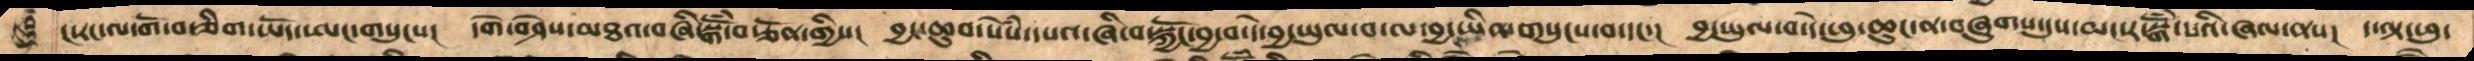ང་རང་ལ་གོ་བ་ཅིག་ཡོད་ཨང་གསུངས། དགེ་བཤེས་མཐའ་བཞི་སྒོཾ་བརྩོན་གྱིས།  བྱང་ཆུབ་སེཾས་དཔའ་ཞི་བ་སྐྱོང་བྱ་བ་དེ་བྱ་ཡུལ་བ་ལ་བྱ་ཡིན་གསུངས་བ་དང་། བྱ་ཡུལ་བ་དེ་ཕུ་ཆུང་ན་བཞུགས་དུས་མང་ར་སྒོཾ་པའི་ཞལ་ནས། ད་ལྟ་ཕུ་
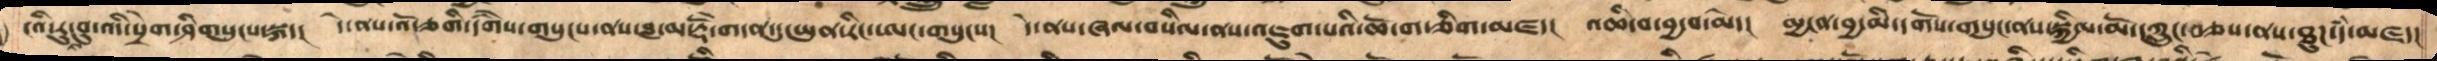ངའི་རུང་བུ་འདི་སྲེག་ཤིགསུངས་སྐད། དེ་ནས་འོ་ཅགི་དགཻས་གསུངས་ནས་བླ་མ་རྡོེ་གདན་དུ་ཡུན་རིང་ཨང་གསུངས་། དེ་ནས་ཞལ་བསིལ་ནས་འཇུག་པའི་ཆོ་ག་ཅིག་མཛད། འཆི་བ་བྱ་བ་མེད་། མྱངན་བྱ་མི་དགོས་གསུང་ནས་སྐྱིལ་མོ་ཀྲུང་བཅས་ནས་ཐུཌ་དཾ་མཛད།
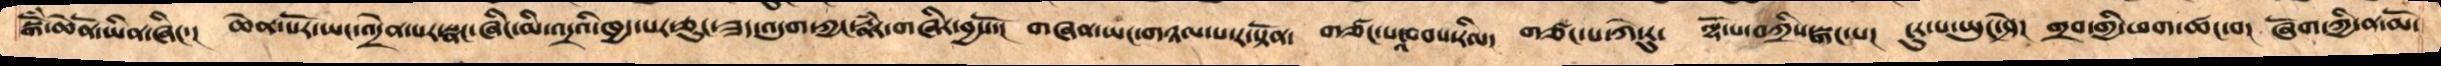སྒོཾ་ཆེནོ་ཡིན་ཞིང་།   ཆེན་པོར་ཡང་འདྲེན་པར་སྣང་ཞིང་མི་འདྲའི་ཁྱད་པར་ཅུང་ཟད་འདུག་ཀྱང་རྣཾར་གཞིར་བྱསོ་།  གཞན་ཡང་གཉལ་པ་ར་སྟོན།  གཙང་པའ་བབས་རིལ།  གཙང་པ་ཀེ་རུ་  ལྷོ་པ་བཀྲིས་སྒང་པ།  ངུར་པ་ཡུང་ཤེ།  གྲབ་གྱི་ཕག་ཚང་བ།  ཞོག་ཀྱི་ན་མོ་
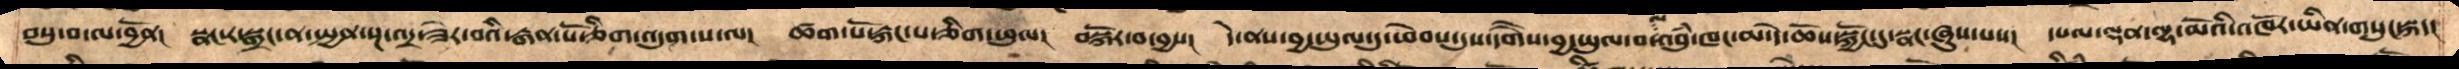བསུ་བ་ལ་བྱོན། སྣང་ར་སྒྲང་ན་སྤྱན་སྔ་འདྲ་ཟེར་བའི་རྒན་པོ་ཅིག་འདུག་པ་ལ།  ཚག་པོ་རྐང་པ་ཅིག་ཕུལ།  བསྐོར་བ་བྱས། དེ་ནས་བྱ་ཡུལ་དུ་ཕེབས་དུས་དགཻས་བྱ་ཡུལ་བ་ལ་འབུཾ་ཁང་མ་དེ་ཆོས་སྐྱོང་དུ་སྣང་ཞུས་པས། དཔལ་ལྡན་ལྷ་མོའི་འཁོར་ཡིན་གསུང་སྐད།
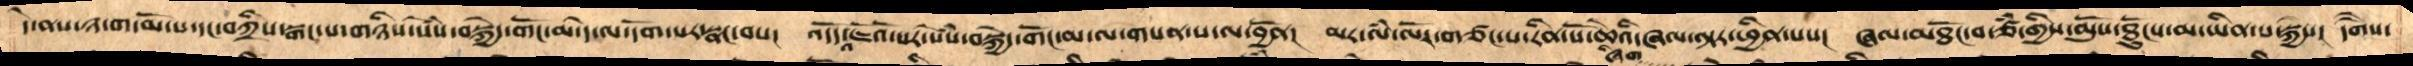དེ་ནས་ཉ་ག་མོ་པ་དང་བཀྲིས་སྒང་པ་གཉིས་སེཾས་བསྐྱེད་གོང་མ་དེ་ལ་དོག་པར་སྣང་བས།   འདོད་འཇོའོ་སར་སེཾས་བསྐྱེད་གོང་མ་ལ་གསན་པ་ལ་བྱོན། མར་ལཾ་ལོར་གཙང་པ་རིན་པོ་ཆེའི་ཞལ་ལྟར་ཕྱིན་པས། ཞལ་མཐོང་བ་ཙཾ་གྱིས་མོུས་ཐོུངས་མ་ཡིན་པ་སྐྱེས། དགཻས་
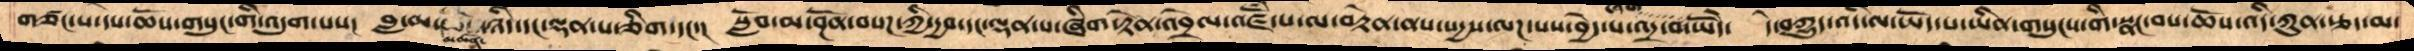གཙང་པ་དེཔ་ཆོས་གསུང་གི་འདུག་པས། བླ་མས་མཚན་ཉིད་དང་ལྡན་པ་ཅིག་དང་། སློབ་མ་སྔོན་བསཌ་ཀྱི་དྱབ་དང་ལྡན་པ་ཞིག་རྟེན་འབྲེལ་འཛོཾ་པ་ལ་བརྟེན་ནས་སདྱས་ལཌ་པས་བྱེད་པ་འདྲ་བ་ཞིག་ཡོདེ།  དེ་བཀྱུད་འདི་ལ་ཡོད་པ་ཡིན་གསུངས་གི་སྣང་བས་ཆོས་འདི་ཀུན་རྩད་མ་
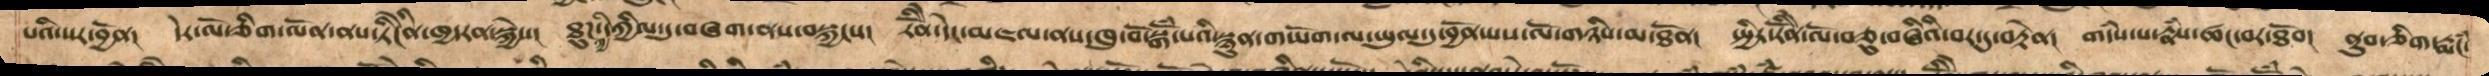པའི་སར་བྱོན།  དེར་ལོ་ཅིག་ལོན་ནས་ཏིེངནི་ཁྱདརན་སྐྱེས། ཐུཌ་ཀྱི་དཀྱིལ་དུ་བཞག་ནས་བསྐྱངས། རོིནེ་དེང་མཇལ་ནས་ཁུ་བོ་སྒོཾ་པའི་སྙུན་གཡོག་ལ་ཡུལ་དུ་བྱོན་པས་ལོ་གཉིས་མ་ཐོན། སྤྱིར་རོིནེ་ལོ་བཅུ་བཞིའི་བར་དུ་བརྟེན། གདཾས་པ་རྣཾས་ཚང་བར་ཐོབ། ནུབ་ཅིག་རྨཾ།
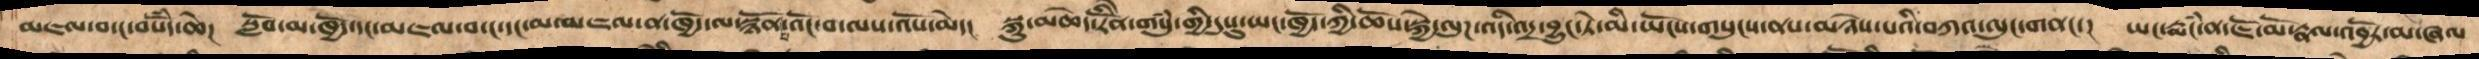མཇལ་བ་ང་བསོཾད་ཆེ།  སློབ་མ་ཁྱོད་དང་མཇལ་བ་ང་དང་མ་མཇལ་ན་ཁྱོད་ལ་སྙོན་པ་འོང་བ་ལས་འོས་མེད། སྐུ་མཆེད་རོིནེ་གསུཾ་གྱི་དུསུ་ཡང་ཁྱོད་ཀྱི་ཆོས་སྐྱེ་ལུཌ་འདི་འདྲ་བྱུང་ཏེ་མི་ཡོངས་གསུངས་ནས་མཉེས་པའི་བཀའ་ལུང་གནང་། ཡང་རྨཾང་ན་ཇོ་མོ་རྣལ་འབྱོར་མ་ཞལ་
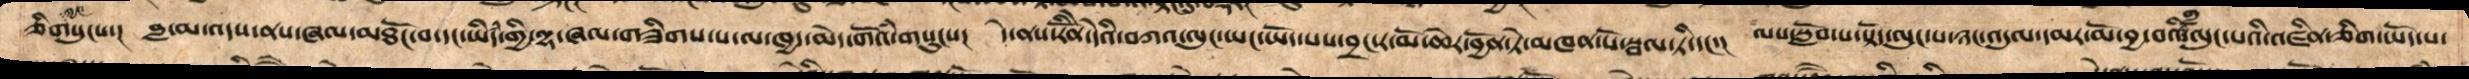ཅིག་ཀྱང་གསུངས། བླ་མ་འདས་ནས་ཞལ་མཐོང་བ་དང་ཡིདཾ་གྱི་ལྷ་ཞལ་གཟིགས་པ་ལ་ཁྱད་མེད་གོའཾ་གསུངས། དེ་ནས་རོིནོ་དེའི་བཀའ་ལུང་ཡང་ཡོད་པས་བྲང་ར་མོ་ཆེར་བྱོན་ཏེ་མཁན་པོ་སྦལ་ཏི་དང་། ལས་སློབ་པ་སྟོད་ལུང་པ་ཉང་འདུལ་དམར་མོ་བྱ་བའི་ལུང་པའི་འཛིན་ཅིག་ཡོད་པ་
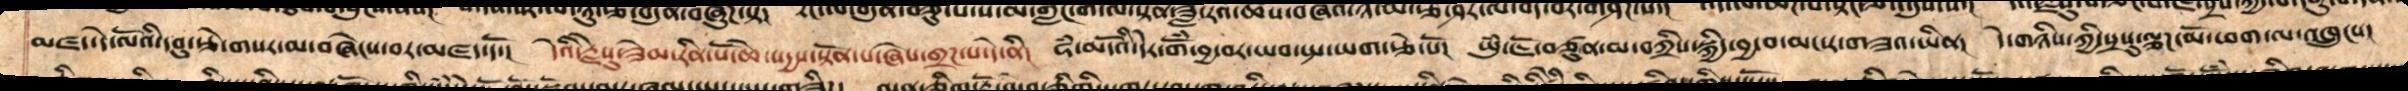མཛད་དེ་ལོའི་དབུ་རྩེ་གསར་མ་བཞེངས་བར་མཛད་དོ་།  དེའི་རྗེསུ་ཟེམ་རིན་པོ་ཆེ་སདྱས་སྟོན་པ་ཞེས་གྲཌ་པ་དེ་ནི། ཧཾ་མདོའི་དེར་གོཾ་བྱ་བར་ཡབ་སྤ་ཡག་རྩེ་པོ་། ཡུཾ་ཇོ་བཙུན་མ་བཀྲིས་སྐྱིད་བྱ་བ་མང་ར་གཟའ་ཡིན།  དེ་གཉིས་ཀྱི་སྲསུ་ལྕཌ་མོ་ཕག་ལ་འཁྲུངས།
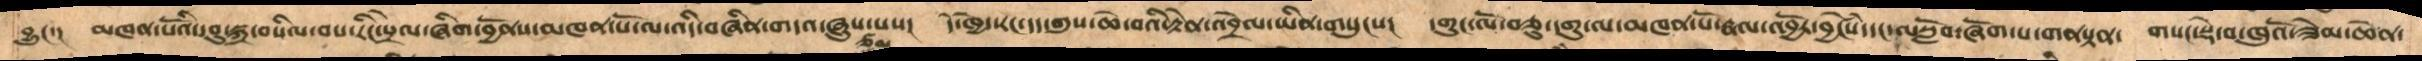བྱུང་། མཁན་པོའི་དབུ་སྐྲ་བསིལ་བས་རིང་སྲེལ་ཞིག་བྱོནས་མཁན་པོ་ལ་འདི་བཞིན་གདའ་ཞུས་པས། དེ་ཁྱེད་རང་དད་གུས་ཆེ་བའི་རྟེན་འབྲེལ་ཡིན་གསུངས། དགུང་ལོ་བཅུ་དགུ་ལ་མཁན་པོ་རྣལ་འབྱོར་བྱངེཾས་དང་ལསློབ་ཞོག་པ་གནསྟན། གསང་སྡེ་བ་ཁུའོ་ཟེམ་ཆེན
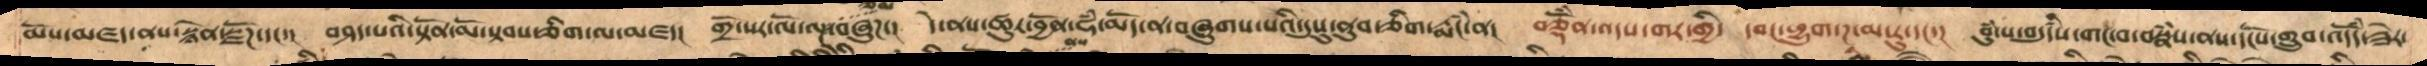མོས་མཛད་ནས་བསྙེན་སྫོཌ་དང་།  བཤད་པའི་སྟོན་མོ་སྟབས་ཅིག་ལ་མཛད། གྲོ་སར་ལོ་ལྔ་ཙམ་བཞུཌ་། དེ་ནས་ཚུར་བྱོན་ཧཾ་མདོ་ན་བཞུགས་པའི་དུསུ་ནུབ་ཅིག་རྨཾང་ན།  བཅྡོཾན་འདས་གར་གྱི་ དབང་ཕྱུག་ཌཱ་མ་རུ་དང་།  བུཾ་པ་བདུདརྩིས་གང་བ་བསྣཾས་ནས་དངོས་གྲུབ་འདོདཾ་ཟེར་
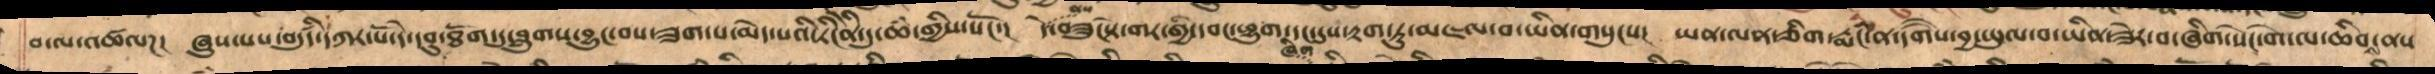བ་ལ་འཚལཌ།  ཞུས་པས་བདུརྩི་དཀར་པོ་དེ་དབུ་ཐོག་དུ་བླུགས་བྱུང་བས་ཟག་པ་མེད་པའི་་ཏིངེཛིན་དུ་ཆཾ་གྱིས་སོང་། དེ་ནས་བཟུངས་གར་གྱི་དབང་ཕྱུག་དང་དུས་རྟག་ཏུ་མཇལ་བ་ཡིན་གསུངས། ཡན་ལན་ཅིག་རྨཾང་ནདགཻས་་བྱ་ཡུལ་བ་ཡིན་ཟེར་བ་ཞིག་སེང་གེ་ལ་ཆིབས་ནས་
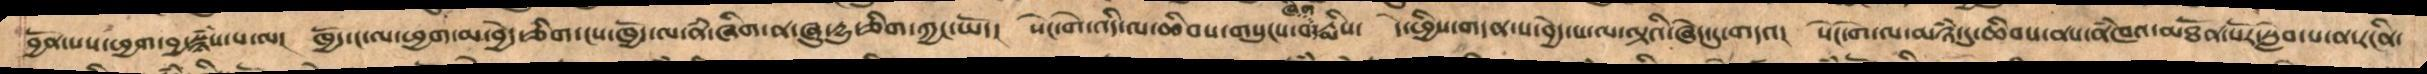བྱོན་པས་ཕྱག་བྱ་སྙཾས་པ་ལ། ཁྱོད་ང་ལ་ཕྱག་མ་བྱེད་ཅིག་ངས་ཁྱོད་ལ་ནཾ་ཞིག་ན་ཞུ་དྱུ་ཅིག་ཀྱང་ཡོད། སེང་གེ་འདི་ལ་ཆིབས་གསུང་བ་ཞིག་རྨིས། དེ་ཕྱིས་གདན་ས་བྱེད་པ་ལ་ལྟའི་ཞེད་དུ་གདའ། སེང་གེ་ལ་མཉཾ་དུ་ཆིབས་ནས་ནཾཁའ་མཐོན་པོར་སླེབ་པ་ན་རངིན་
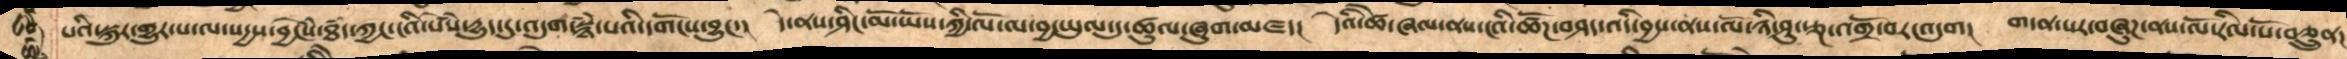པའི་སྐུར་གྱུར་པ་ལ་སདྱས་བྱེངཾས་ཐཾད་ཀྱང་ངའི་སེཾས་དྱུད་དུ་འདུག་སྙཾ་པའི་དགོངས་བྱུང་། དེ་ནས་ཤིང་མོ་ཡོས་ཀྱི་ལོ་ལ་བྱ་ཡུལ་དུ་ཚུལ་ཞུག་མཛད། དེའི་ཚེ་ཞལ་ནས་ངའི་ཚོཌ་བཤད་འདི་བྱས་ནས་ལོ་ཉི་ཤུ་རྩྔ་འགྲོ་བར་འདུག།  གདན་སར་བཞུཌ་ནས་ལོ་རིལ་་པོ་བཅྲུན།
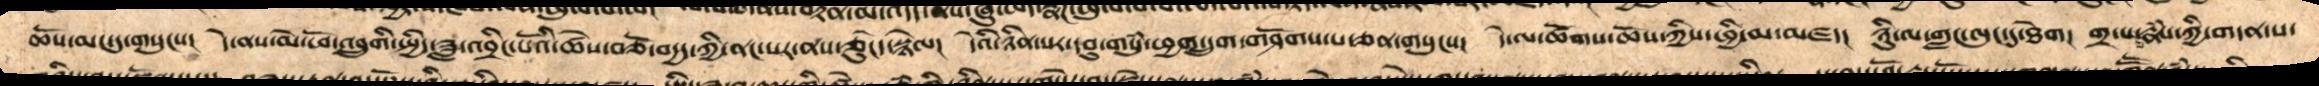ཆོས་མང་དུ་གསུངས་། དེ་ནས་མེ་ཕོ་འབྲུགི་སྤྱིད་ཟླ་འབྲིང་པོའི་ཚེས་བཅོ་བདྱད་ཀྱི་ནང་པར་ནས་ཅུངེད་སྙེལ། དེའི་ཉིན་པར་དབུ་གསུཾ་ཕྱག་དྲུག་གཤོགས་པ་ཅན་གསུངས་ དེ་ལ་ཚོགས་ཆོས་ཀྱིས་ཕྱི་མ་མཛད།  ཉིུ་ལ་གླང་ལུང་ལ་ཐེག། གྲ་པ་རྣཾས་ཀྱི་གདན་ས་
